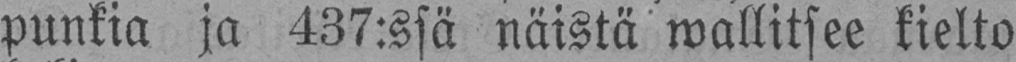punkia ja 437:ssä näistä wallitsee kielto-
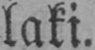laki.
